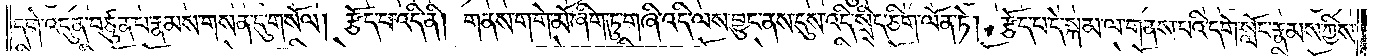དགེ་འདུན་བཙུན་པ་རྣམས་གསན་དུ་གསོལ། རྩོད་པ་འདི་ནི། གནས་ག་གེ་མོ་ཞིག་ཏུ་གཞི་འདི་ལས་བྱུང་ནས་དུས་འདི་སྲིད་ཅིག་ལོན་ཏེ། རྩོད་པ་དེ་སྐམ་ལ་གནས་པའི་དགེ་སློང་རྣམས་ཀྱིས་
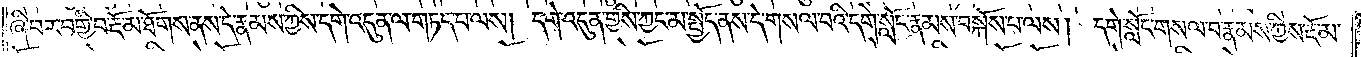ཞི་བར་བགྱི་བ་རྡོ་མ་ཐོགས་ནས་དེ་རྣམས་ཀྱིས་དགེ་འདུན་ལ་གཏད་པ་ལས། དགེ་འདུན་གྱིས་ཀྱང་མ་སྤྱོད་ནས་དེ་གསལ་བའི་དགེ་སློང་རྣམས་བསྐོས་པ་ལས། དགེ་སློང་གསལ་བ་རྣམས་ཀྱིས་རྔོ་མ་
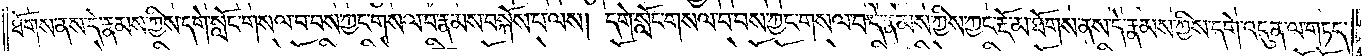ཐོགས་ནས་དེ་རྣམས་ཀྱིས་དགེ་སློང་གསལ་བ་བས་ཀྱང་གསལ་བ་རྣམས་བསྐོས་པ་ལས། དགེ་སློང་གསལ་བ་བས་ཀྱང་གསལ་བ་དེ་རྣམས་ཀྱིས་ཀྱང་རྔོ་མ་ཐོགས་ནས་དེ་རྣམས་ཀྱིས་དགེ་འདུན་ལ་གཏད་
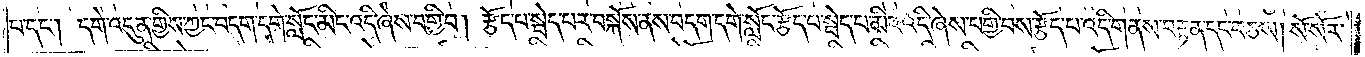པ་དང༌། དགེ་འདུན་གྱིས་ཀྱང་བདག་དགེ་སློང་མིང་འདི་ཞེས་བགྱི་བ། རྩོད་པ་སྦེད་པར་བསྐོས་ནས་བདག་དགེ་སློང་རྩོད་པ་སྦེད་པ་མིང་འདི་ཞེས་བགྱི་བས་རྩོད་པ་འདི་གནས་བརྟན་དང་བཅས། སོ་སོར་
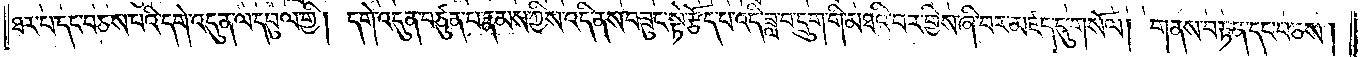ཐར་པ་དང༌། བཅས་པའི་དགེ་འདུན་ལ་དབུལ་གྱི། དགེ་འདུན་བཙུན་པ་རྣམས་ཀྱིས་འདི་ནས་བཟུང་སྟེ་རྩོད་པ་འདི་ཟླ་བ་དྲུག་གི་མཐའི་བར་གྱིས་ཞི་བར་མཛད་དུ་གསོལ། གནས་བརྟན་དང་བཅས།
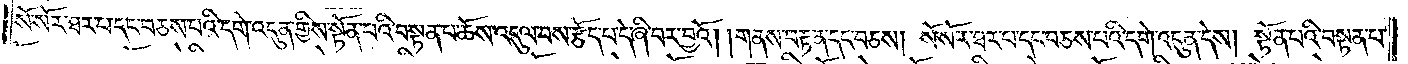སོ་སོར་ཐར་པ་དང་བཅས་པའི་དགེ་འདུན་གྱིས་སྟོན་པའི་བསྟན་པ་ཆོས་འདུལ་བས་རྩོད་པ་དེ་ཞི་བར་བྱའོ། །གནས་བརྟན་དང་བཅས། སོ་སོར་ཐར་པ་དང་བཅས་པའི་དགེ་འདུན་དེས། སྟོན་པའི་བསྟན་པ་
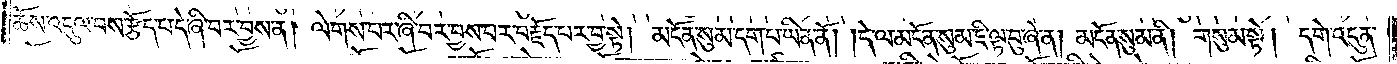ཆོས་འདུལ་བས་རྩོད་པ་དེ་ཞི་བར་བྱས་ན། ལེགས་པར་ཞི་བར་བྱས་པར་བརྗོད་པར་བྱ་སྟེ། མངོན་སུམ་དག་པ་ཡིན་ནོ། །དེ་ལ་མངོན་སུམ་ཇི་ལྟ་བུ་ཞེ་ན། མངོན་སུམ་ནི། གསུམ་སྟེ། དགེ་འདུན་
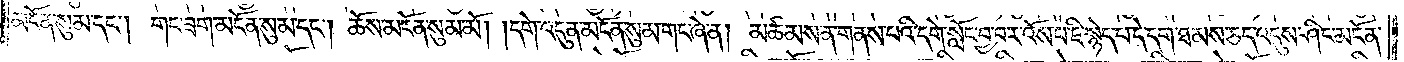མངོན་སུམ་དང༌། གང་ཟག་མངོན་སུམ་དང༌། ཆོས་མངོན་སུམ་མོ། །དགེ་འདུན་མངོན་སུམ་གང་ཞེ་ན། མཚམས་ན་གནས་པའི་དགེ་སློང་བྱ་བར་འོས་པ་ཇི་སྙེད་པ་དེ་དག་ཐམས་ཅད་འདུས་ཤིང་མངོན་
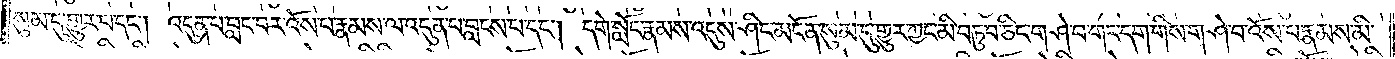སུམ་དུ་གྱུར་པ་དང༌། འདུན་པ་བླང་བར་འོས་པ་རྣམས་ལ་འདུན་པ་བླངས་པ་དང༌། དགེ་སློང་རྣམས་འདུས་ཤིང་མངོན་སུམ་དུ་གྱུར་ཀྱང་མི་བཏུབ་ཅིང་གཤེ་བ་གང་དག་གིས་གཤེ་བ་འོས་པ་རྣམས་མི་
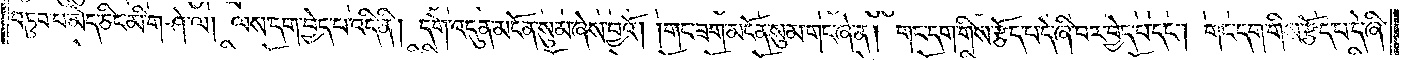བཏུབ་པ་མེད་ཅིང་མི་གཤེ་ལ། ལས་དག་བྱེད་པ་འདི་ནི། དགེ་འདུན་མངོན་སུམ་ཞེས་བྱའོ། །གང་ཟག་མངོན་སུམ་གང་ཞེ་ན། གང་དག་གིས་རྩོད་པ་དེ་ཞི་བར་བྱེད་པ་དང༌། གང་དག་གིས་རྩོད་པ་དེ་ཞི་
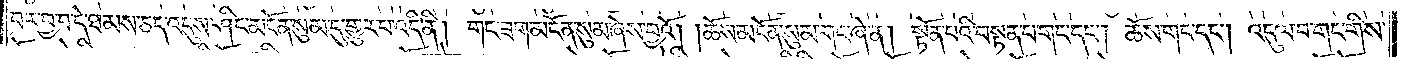བར་བྱ་བ་དེ་ཐམས་ཅད་འདུས་ཤིང་མངོན་སུམ་དུ་གྱུར་པ་འདི་ནི། གང་ཟག་མངོན་སུམ་ཞེས་བྱའོ། །ཆོས་མངོན་སུམ་གང་ཞེ་ན། སྟོན་པའི་བསྟན་པ་གང་དང༌། ཆོས་གང་དང༌། འདུལ་བ་གང་གིས་
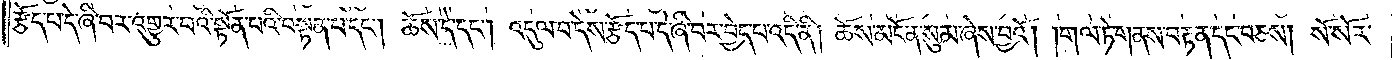རྩོད་པ་དེ་ཞི་བར་འགྱུར་བའི་སྟོན་པའི་བསྟན་པ་དང༌། ཆོས་དེ་དང༌། འདུལ་བ་དེས་རྩོད་པ་དེ་ཞི་བར་བྱེད་པ་འདི་ནི། ཆོས་མངོན་སུམ་ཞེས་བྱའོ། །གལ་ཏེ་གནས་བརྟན་དང་བཅས། སོ་སོར་
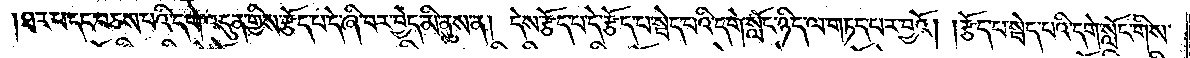ཐར་པ་དང་ཅས་པའི་དགེ་འདུན་གྱིས་རྩོད་པ་དེ་ཞི་བར་བྱེད་མི་ནུས་ན། དེས་རྩོད་པ་དེ་རྩོད་པ་སྦེད་པའི་དགེ་སློང་ཉིད་ལ་གཏད་པར་བྱའོ། །རྩོད་པ་སྦེད་པའི་དགེ་སློང་གིས་
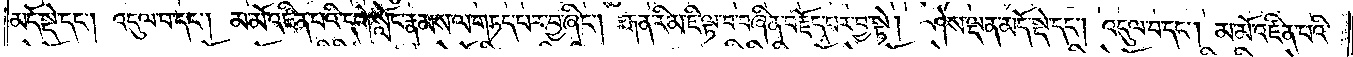མདོ་སྡེ་དང༌། འདུལ་བ་དང༌། མ་མོ་འཛིན་པའི་དགེ་སློང་རྣམས་ལ་གཏད་པར་བྱ་ཞིང༌། རྒན་རིམ་ཇི་ལྟ་བ་བཞིན་བརྗོད་པར་བྱ་སྟེ། ཤེས་ལྡན་མདོ་སྡེ་དང༌། འདུལ་བ་དང༌། མ་མོ་འཛིན་པའི་
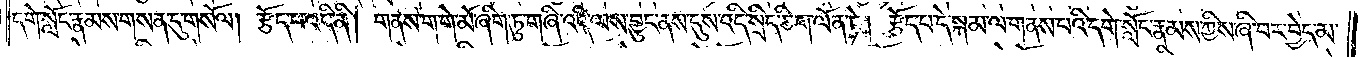དགེ་སློང་རྣམས་གསན་དུ་གསོལ། རྩོད་པ་འདི་ནི། གནས་ག་གེ་མོ་ཞིག་ཏུ་གཞི་འདི་ལས་བྱུང་ནས་དུས་འདི་སྲིད་ཅིག་ལོན་ཏེ། རྩོད་པ་དེ་སྐམ་ལ་གནས་པའི་དགེ་སློང་རྣམས་ཀྱིས་ཞི་བར་བྱེད་མ་
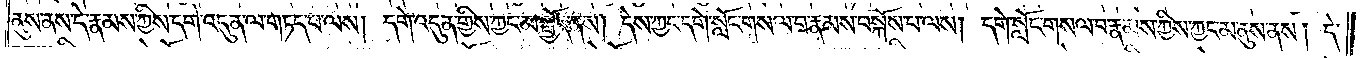ནུས་ནས་དེ་རྣམས་ཀྱིས་དགེ་འདུན་ལ་གཏད་པ་ལས། དགེ་འདུན་གྱིས་ཀྱང་མ་སྤྱོད་ནས། དེས་ཀྱང་དགེ་སློང་གསལ་བ་རྣམས་བསྐོས་པ་ལས། དགེ་སློང་གསལ་བ་རྣམས་ཀྱིས་ཀྱང་མ་ནུས་ནས། དེ་
